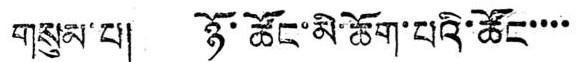གསུམ་པ། ཉོ་ཚོང་མི་ཆོག་པའི་ཚོང་་་་
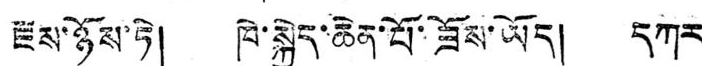རྫས་ཉོས་ཏེ། ཁེ་སྐྱིད་ཆེན་པོ་ཟོས་ཡོད། དཀར
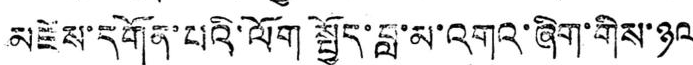མཛེས་དགོན་པའི་ལོག སྤྱོད་བླ་མ་འགའ་ཞིག་གིས་ཉལ
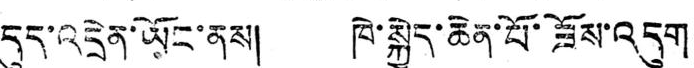དུད་འདྲེན་ཡོང་ནས། ཁེ་སྐྱེད་ཆེན་པོ་ཟོས་འདུག
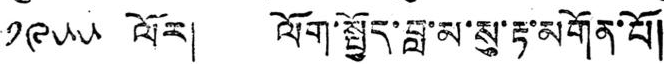༡༩༥༥ ལོར། ལོག་སྤྱོད་བླ་མ་སུ་རྟ་མགོན་པོ།
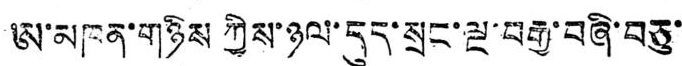ཨ་མཁན་གཉིས ཀྱིས་ཉལ་དུད་སྲང་ལྔ་བརྒྱ་བཞི་བཅུ་་
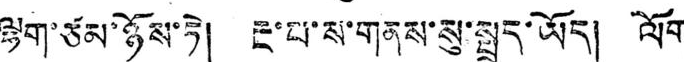ལྷག་ཙམ་ཉོས་ཏེ། རྔ་པ་ས་གནས་སུ་སྤྲད་ཡོད། ལོག
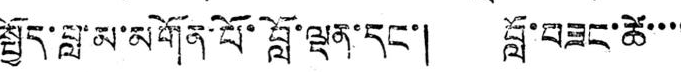སྤྱོད་བླ་མ་མགོན་པོ་བློ་ལྡན་དང་། བློ་བཟང་ཚེ་་་་
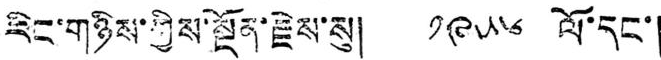རིང་གཉིས་ཀྱིས་སྔོན་རྗེས་སུ། ༡༩༥༦ ལོ་དང་།
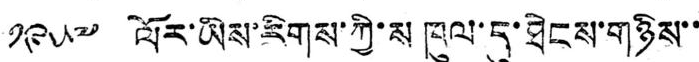༡༩༥༧ ལོར་ཡིས་རིགས་ཀྱི་ས ཁུལ་དུ་ཐེངས་གཉིས་་
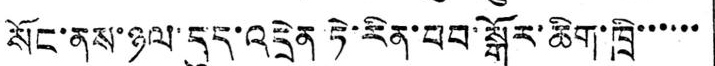སོང་ནས་ཉལ་དུད་འདྲེན ཏེ་རིན་བབ་སྒོར་ཆིག་ཁྲི་་་་་་
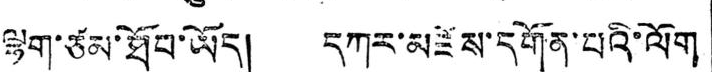ལྷག་ཙམ་ཐོབ་ཡོད། དཀར་མཛེས་དགོན་པའི་ལོག
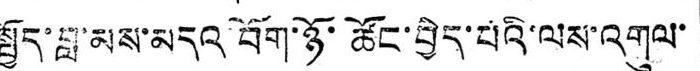སྤྱོད་བླ་མས་མདའ་བོག་ཉོ་ཚོང་བྱེད་པའི་ལས་འགུལ་
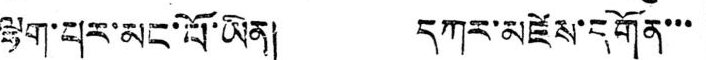ལྷག་པར་མང་པོ་ཡིན། དཀར་མཛེས་དགོན་་་
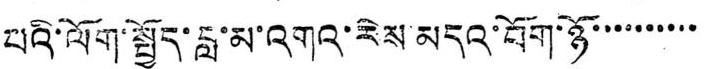པའི་ལོག་སྤྱོད་བླ་མ་འགའ་རེས་མདའ་བོག་ཉོ་་་་་་་་་་
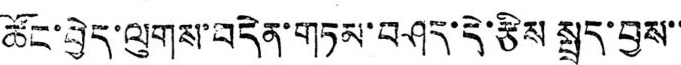ཚོང་བྱེད་ལུགས་བདེན་གཏམ་བཤད་དེ་རྩིས སྤྲད་བྱས་་
